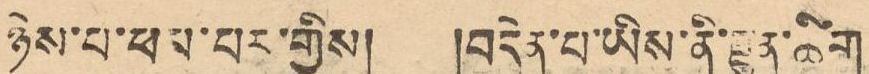ཉེས་པ་ཕལ་པར་གྱིས། །བདེན་པ་ཡིས་ནི་གྲུན་ཚིག
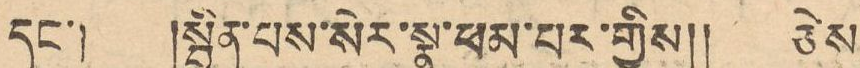དང་། །སྦྱིན་པས་སེར་སྣ་ཕམ་པར་གྱིས།། ཅེས
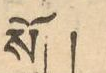སོ། །
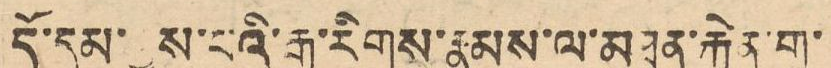དོ་དམ་རྒྱས་པའི་རྒྱ་རིགས་རྣམས་པ་མཐུན་རྐྱེན་གྲ་
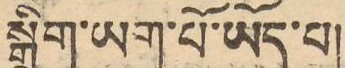སྒྲིག་ཡག་པོ་ཡོད་པ།
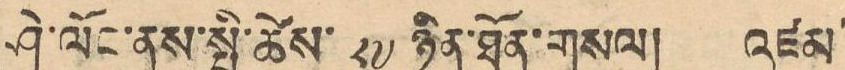ཤེ་ལོང་ནས་སྤྱི་ཚེས་ ༢༧ ཉིན་ཐོན་གསལ། འཛམ་
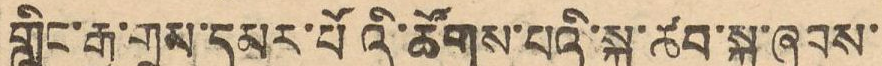གླིང་རྒྱ་གྲས་དམར་པོའི་ཚོགས་པའི་སྐུ་ཚབ་སྐུ་ཞབས་
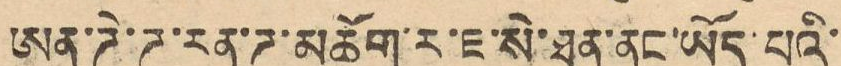ཨན་ཌེ་ཌ་རན་ཌ་མཆོག་ར་ཇ་སེ་ཐན་ནང་ཡོད་པའི་
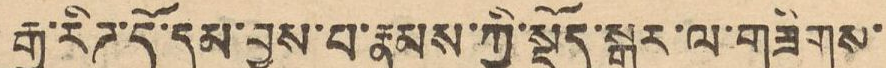རྒྱ་རིཊ་དོ་དམ་བྱས་པ་རྣམས་ཀྱི་སྡོད་སྒར་ལ་གཟིགས་
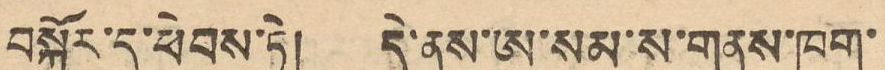བསྐོར་དུ་ཕེབས་ཏེ། དེ་ནས་ཨ་སམ་ས་གནས་ཁག་
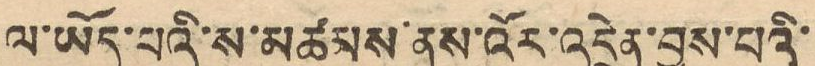ལ་ཡོད་པའི་ས་མཚམས་ནས་འོར་འདྲེན་བྱས་པའི་
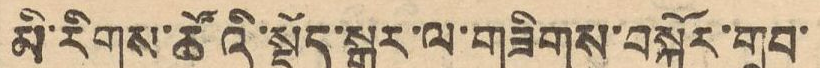མི་རིགས་ཚོའི་སྡོད་སྒར་ལ་གཟིགས་བསྐོར་གྲུབ་
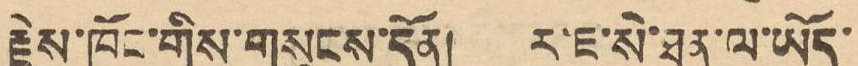རྗེས་ཁོང་གིས་གསུངས་དོན། ར་ཇ་སེ་ཐན་ལ་ཡོད་
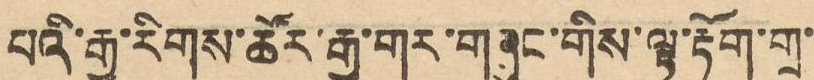པའི་རྒྱ་རིགས་ཚོར་རྒྱ་གར་གཞུང་གིས་ལྟ་རྟོག་གྲ་
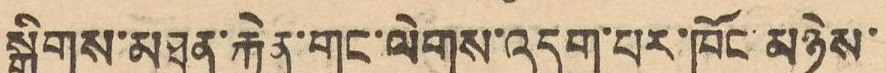སྒྲིགས་མཐུན་རྐྱེན་གང་ལེགས་འདུག་པར་ཁོང་མཉེས་
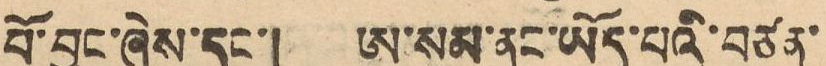པོ་བྱུང་ཤེས་དང་། ཨ་སམ་ནང་ཡོད་པའི་བཙན་
